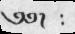༄༅།    ༴
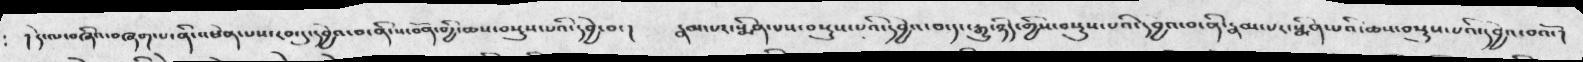།  དེ་ལ་བཞིའ་བཞག་པ་ནི་འཕེན་པས་དབང་དུ་དབྱེའ་བ་ནི་ས་བོན་གྱི་ཆས་བསྡུས་པའི་དབྱེ་བ་།  རྣམ་པར་སྨིན་པས་བསྡུས་པའི་དབྱེའ་བ་དང་རྒྱུ་ཉིད་གྱིས་བསྡུས་པའི་དབྱེའ་བ་ནི་རྣམ་པར་སྨིན་པའི་ཆས་བསྡུས་པའི་དབྱེའ་བའོ་།
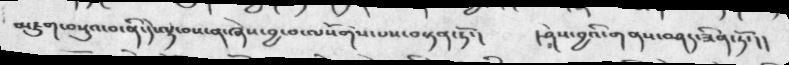མཇུག་བསུའ་བ་ནི་དེ་ལྟ་བས་ན་ཞེས་བྱ་བ་ལསོགས་པས་བསྟན་ཏོ་།  ། ཤེས་བྱའི་གནས་བཤད་ཟིན་ཏོ་།།
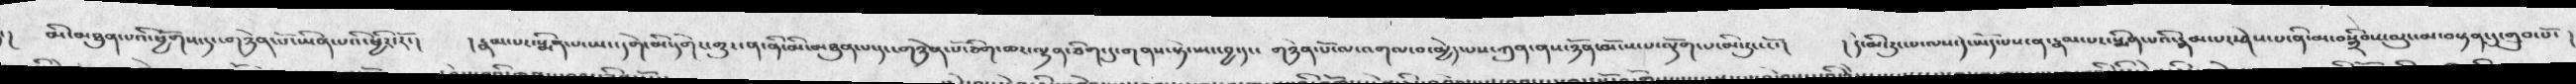།    མི་མཐུན་པའི་ཕྱོགས་དང་གཉེན་པོ་ཡིན་པའི་ཕྱིར་རོ་།  ། རྣམ་པར་སྨིན་པ་ཡང་དགེ་མི་དགེར་གྱུར་ན་ནི་མི་མཐུན་པ་དང་གཉེན་པོ་ཅིག་ཆར་ལྷན་ཅིག་དུ་གནས་སྟེ་སྤང་བྱ་དང་  གཉེན་པོ་ལ་འགལ་བ་མྱེད་པས་ཀུན་ནས་ཉོན་མོངས་པ་ལྡོག་པ་མི་རུང་ངོ་།  ། དེ་མི་རུང་པ་ལས་དེ་ཡོད་པས་ན་རྣམ་པར་སྨིན་པའི་རྣམ་ཤེས་པ་ནི་མ་བསྒྲིབས་ལུང་མ་བསྟན་དུ་གྲུབ་པོ་
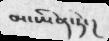མ་ཡིན་ཏེ་།
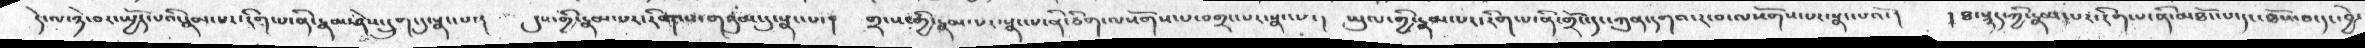དེ་ལ་ཉེ་བར་སྤྱོད་པའི་རྣམ་པར་རིག་པ་ནི་རྣམ་ཤེས་དྲུག་དུ་སྣང་པ་།  དུས་གྱི་རྣམ་པར་རིག་པ་གསུམ་དུ་སྣང་པ་།   གྲངས་གྱི་རྣམ་པར་སྣང་པ་ནི་ཅིག་ལསོགས་པ་བགྲང་པར་སྣང་པ་།  ཡུལ་གྱི་རྣམ་པར་རིག་པ་ནི་གྲོང་དང་ཀུན་དགའ་ར་བ་ལསོགས་པར་སྣང་པའོ་།  ། ཐ་སྙད་ཀྱི་རྣམ་པར་རིག་པ་ནི་མཐོང་པ་དང་ཐོས་པ་དང་བྱེ་
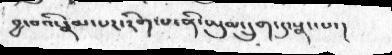བྱ་བའི་རྣམ་པར་རིག་པ་ནི་ཡུལ་དྲུག་དུ་སྣང་པ་།
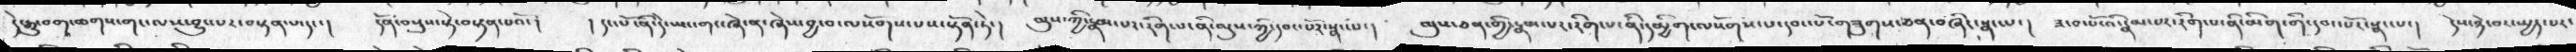དེ་རྒྱུ་བག་ཆགས་གང་ལས་བྱུང་པར་བསྟན་པ་དང་།  དོན་བསྡུས་སྟེ་བསྟན་པའོ་།  ། དང་པོ་ནི་དེ་ཡང་གང་ཞེ་ན་ཞེས་བྱ་བ་ལསོགས་པས་སྟོན་ཏེ་།  ལུས་ཀྱི་རྣམ་པར་རིག་པ་ནི་ལུས་ཀྱི་དབར་པོར་སྣང་པ་།     ལུས་ཅན་གྱི་རྣམ་པར་རིག་པ་ནི་དམྱིག་ལསོགས་པ་དབང་པོ་གཟུགས་ཅན་བཞིང་སྣང་པ་།    ཟ་བ་པོ་འི་རྣམ་པར་རིག་པ་ནི་མིག་གི་དབང་པོར་སྣང་པ་།     དེས་ཉེ་བར་སྤྱད་པར་
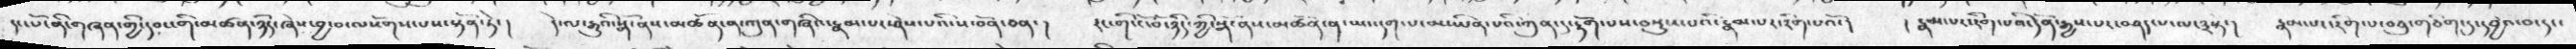དང་པོ་ནི་གཞན་གྱི་དབང་གི་མཚན་ཉིད་ཞེས་བྱ་བ་ལསོགས་པས་སྟོན་ཏེ་།  དེ་ལ་རྒྱུའི་སྒོ་ནས་མཚོན་ན་ཀུན་གཞིའ་རྣམ་པར་ཤེས་པའི་ས་བོན་ཅན་།   རང་གི་ངོ་བོ་ཉིད་ཀྱི་སྒོ་ནས་མཚོན་ན་ཡང་དག་པ་མ་ཡིན་པའི་ཀུན་དུ་རྟོག་པས་བསྡུས་པའི་རྣམ་པར་རིག་པའོ་།   ། རྣམ་པར་རིག་པའི་དོན་རྒྱས་པར་བཤད་པ་ལ་༣སྟེ་།   རྣམ་པར་རིག་པ་བཅུ་གཅིག་དུ་དབྱེའ་བ་དང་
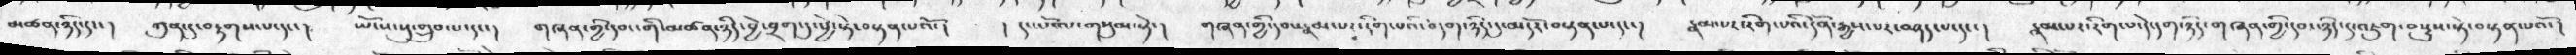མཚན་ཉིད་དང་།  ཀུན་དུ་བརྟགས་པ་དང་།  ཡོངས་སུ་གྲུབ་པ་དང་།  གཞན་གྱི་དབང་གི་མཚན་ཉིད་བྱེ་བྲག་དུ་ཕྱེ་སྟེ་བསྟན་པའོ་།   ། དང་པོ་ལ་གསུམ་སྟེ་།   གཞན་གྱི་དབང་རྣམ་པར་རིག་པའི་བདག་ཉིད་དུ་མདོན་བསྟན་པ་དང་།   རྣམ་པར་རིག་པའི་དོན་རྒྱས་པར་བཤད་པ་དང་།  རྣམ་པར་རིག་པ་དེ་དག་ཉིད་གཞན་གྱི་དབང་ཉིད་དུ་འཇུག་བསྡུས་སྟེ་བསྟན་པའོ་།
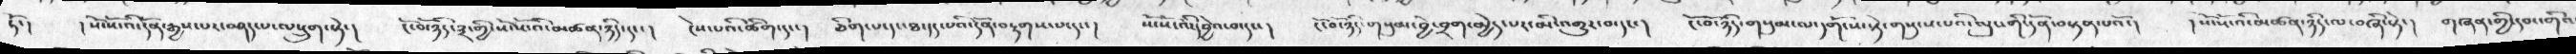ཏོ་།  ། སོ་སོ་འི་དོན་རྒྱས་པར་བཤད་པ་ལ་དྲུག་སྟེ་།  ངོ་བོ་ཉིད་༣་གྱི་སོ་སོ་འི་མཚན་ཉིད་དང་།  ངེས་པའི་ཚིག་དང་།  ཅིག་པ་དང་ཐ་དད་པའི་དོན་བརྟགས་པ་དང་།  སོ་སོ་འི་དབྱེའ་བ་དང་།  ངོ་བོ་ཉིད་གསུམ་བྱེ་བྲག་མྱེད་པར་མི་འགྱུར་བ་དང་།  ངོ་བོ་ཉིད་གསུམ་ལ་དགོངས་ཏེ་གསུངས་པའི་ལུང་གི་དོན་བསྟན་པའོ་།   ། སོ་སོ་འི་མཚན་ཉིད་ལ་བཞི་སྟེ་།  གཞན་གྱི་དབང་གིའ
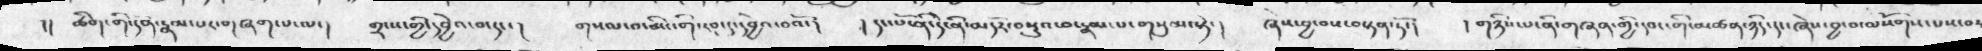།། ཚིག་གི་དོན་རྣམ་པར་གཞག་པ་ལ་།  གྲངས་གྱི་དབྱེའ་བ་དང་།  གསལ་བ་མིང་གི་རབ་དུ་དབྱེའ་བའོ་།  ། དང་པོ་ནི་དེ་ནི་མདོར་བསྡུའ་བ་རྣམ་པ་གསུམ་སྟེ་།  ཞེས་བྱ་བས་བསྟན་ཏོ་།  ། གཉིས་པ་ནི་གཞན་གྱི་དབང་གི་མཚན་ཉིད་དང་ཞེས་བྱ་བ་ལསོགས་པས་བར
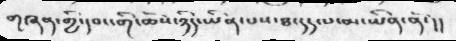གཞན་གྱི་དབང་གི་ཆོས་ཉིད་ཡིན་པས་ཐ་དད་པ་མ་ཡིན་ནོ་།།
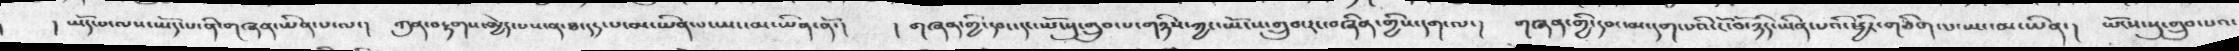། ཡོད་པ་ལས་ཡོད་པནི་གཞན་ཡིན་པ་ལ་།  ཀུན་བརྟགས་མྱེད་པས་ན་ཐ་དད་པ་མ་ཡིན་པ་ཡང་མ་ཡིན་ནོ་།  ། གཞན་གྱི་དབང་དང་ཡོངསུ་གྲུབ་པ་གཉིས་ཀྱང་ཡོངས་གྲུབ་རང་བཞིན་གྱིས་དག་ལ་།  གཞན་གྱི་དབང་མ་དག་པའི་ངོ་བོ་ཉིད་ཡིན་པའི་ཕྱིར་གཅིག་པ་ཡང་མ་ཡིན་།  ཡོངས་སུ་གྲུབ་པའ་
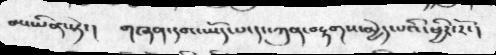མ་ཡིན་སྟེ་ །    གཞན་དབང་ཡོད་པ་དང་ཀུན་བརྟགས་མྱེད་པའི་ཕྱིར་རོ་།
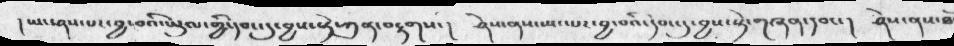། ཡང་ཤས་༷པར་བྱ་བའི་ཡུལ་གྱི་དབང་དུ་བྱས་སྟེ་ཀུན་བརྟགས་།   ཤེས་ནས་སྤང་པར་བྱ་བའི་དབང་དུ་བྱས་སྟེ་གཞན་དབང་།   ཤེས་ནས་ཐོ
